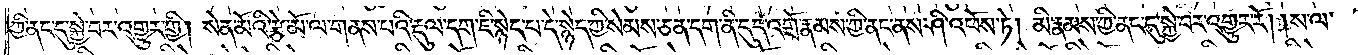ཀྱི་ནང་དུ་སྐྱེ་བར་འགྱུར་གྱི། སེན་མོའི་རྩེ་མོ་ལ་གནས་པའི་རྡུལ་དག་ཇི་སྙེད་པ་དེ་སྙེད་ཀྱི་སེམས་ཅན་དག་ནི་དུད་འགྲོ་རྣམས་ཀྱི་ནང་ནས་ཤི་འཕོས་ཏེ། མི་རྣམས་ཀྱི་ནང་དུ་སྐྱེ་བར་འགྱུར་རོ། །ས་ལ་
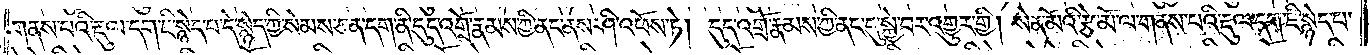གནས་པའི་རྡུལ་དག་ཇི་སྙེད་པ་དེ་སྙེད་ཀྱི་སེམས་ཅན་དག་ནི་དུད་འགྲོ་རྣམས་ཀྱི་ནང་ནས་ཤི་འཕོས་ཏེ། དུད་འགྲོ་རྣམས་ཀྱི་ནང་དུ་སྐྱེ་བར་འགྱུར་གྱི། སེན་མོའི་རྩེ་མོ་ལ་གནས་པའི་རྡུལ་དག་ཇི་སྙེད་པ་
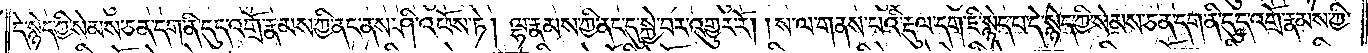དེ་སྙེད་ཀྱི་སེམས་ཅན་དག་ནི་དུད་འགྲོ་རྣམས་ཀྱི་ནང་ནས་ཤི་འཕོས་ཏེ། ལྷ་རྣམས་ཀྱི་ནང་དུ་སྐྱེ་བར་འགྱུར་རོ། །ས་ལ་གནས་པའི་རྡུལ་དག་ཇི་སྙེད་པ་དེ་སྙེད་ཀྱི་སེམས་ཅན་དག་ནི་དུད་འགྲོ་རྣམས་ཀྱི་
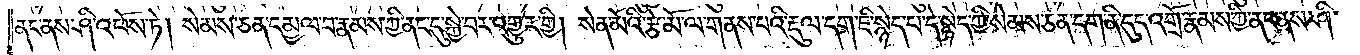ནང་ནས་ཤི་འཕོས་ཏེ། སེམས་ཅན་དམྱལ་བ་རྣམས་ཀྱི་ནང་དུ་སྐྱེ་བར་འགྱུར་གྱི། སེན་མོའི་རྩེ་མོ་ལ་གནས་པའི་རྡུལ་དག་ཇི་སྙེད་པ་དེ་སྙེད་ཀྱི་སེམས་ཅན་དག་ནི་དུད་འགྲོ་རྣམས་ཀྱི་ནང་ནས་ཤི་
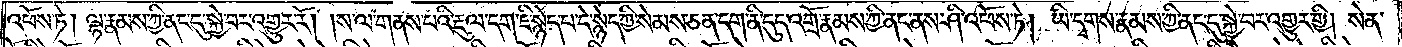འཕོས་ཏེ། ལྷ་རྣམས་ཀྱི་ནང་དུ་སྐྱེ་བར་འགྱུར་རོ། །ས་ལ་གནས་པའི་རྡུལ་དག་ཇི་སྙེད་པ་དེ་སྙེད་ཀྱི་སེམས་ཅན་དག་ནི་དུད་འགྲོ་རྣམས་ཀྱི་ནང་ནས་ཤི་འཕོས་ཏེ། ཡི་དྭགས་རྣམས་ཀྱི་ནང་དུ་སྐྱེ་བར་འགྱུར་གྱི། སེན་
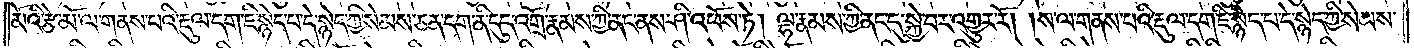མོའི་རྩེ་མོ་ལ་གནས་པའི་རྡུལ་དག་ཇི་སྙེད་པ་དེ་སྙེད་ཀྱི་སེམས་ཅན་དག་ནི་དུད་འགྲོ་རྣམས་ཀྱི་ནང་ནས་ཤི་འཕོས་ཏེ། ལྷ་རྣམས་ཀྱི་ནང་དུ་སྐྱེ་བར་འགྱུར་རོ། །ས་ལ་གནས་པའི་རྡུལ་དག་ཇི་སྙེད་པ་དེ་སྙེད་ཀྱི་སེམས་
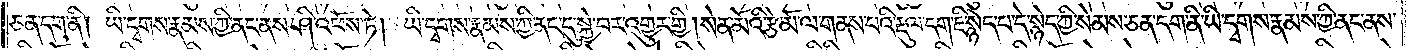ཅན་དག་ནི། ཡི་དྭགས་རྣམས་ཀྱི་ནང་ནས་ཤི་འཕོས་ཏེ། ཡི་དྭགས་རྣམས་ཀྱི་ནང་དུ་སྐྱེ་བར་འགྱུར་གྱི། སེན་མོའི་རྩེ་མོ་ལ་གནས་པའི་རྡུལ་དག་ཇི་སྙེད་པ་དེ་སྙེད་ཀྱི་སེམས་ཅན་དག་ནི་ཡི་དྭགས་རྣམས་ཀྱི་ནང་ནས་
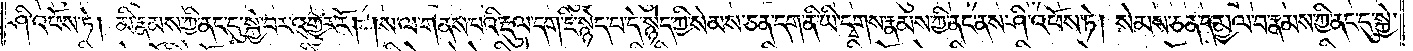ཤི་འཕོས་ཏེ། མི་རྣམས་ཀྱི་ནང་དུ་སྐྱེ་བར་འགྱུར་རོ། །ས་ལ་གནས་པའི་རྡུལ་དག་ཇི་སྙེད་པ་དེ་སྙེད་ཀྱི་སེམས་ཅན་དག་ནི་ཡི་དྭགས་རྣམས་ཀྱི་ནང་ནས་ཤི་འཕོས་ཏེ། སེམས་ཅན་དམྱལ་བ་རྣམས་ཀྱི་ནང་དུ་སྐྱེ་
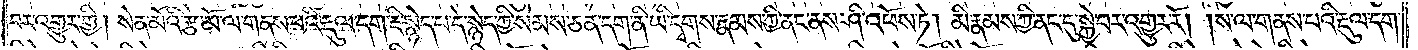བར་འགྱུར་གྱི། སེན་མོའི་རྩེ་མོ་ལ་གནས་པའི་རྡུལ་དག་ཇི་སྙེད་པ་དེ་སྙེད་ཀྱི་སེམས་ཅན་དག་ནི་ཡི་དྭགས་རྣམས་ཀྱི་ནང་ནས་ཤི་འཕོས་ཏེ། མི་རྣམས་ཀྱི་ནང་དུ་སྐྱེ་བར་འགྱུར་རོ། །ས་ལ་གནས་པའི་རྡུལ་དག་
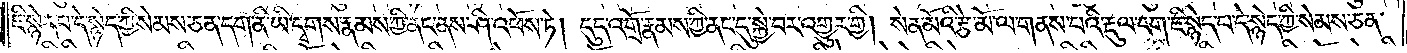ཇི་སྙེད་པ་དེ་སྙེད་ཀྱི་སེམས་ཅན་དག་ནི་ཡི་དྭགས་རྣམས་ཀྱི་ནང་ནས་ཤི་འཕོས་ཏེ། དུད་འགྲོ་རྣམས་ཀྱི་ནང་དུ་སྐྱེ་བར་འགྱུར་གྱི། སེན་མོའི་རྩེ་མོ་ལ་གནས་པའི་རྡུལ་དག་ཇི་སྙེད་པ་དེ་སྙེད་ཀྱི་སེམས་ཅན་
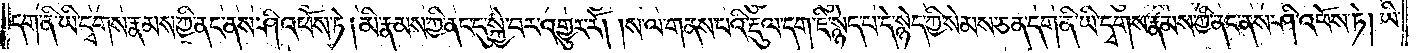དག་ནི་ཡི་དྭགས་རྣམས་ཀྱི་ནང་ནས་ཤི་འཕོས་ཏེ། མི་རྣམས་ཀྱི་ནང་དུ་སྐྱེ་བར་འགྱུར་རོ། །ས་ལ་གནས་པའི་རྡུལ་དག་ཇི་སྙེད་པ་དེ་སྙེད་ཀྱི་སེམས་ཅན་དག་ནི་ཡི་དྭགས་རྣམས་ཀྱི་ནང་ནས་ཤི་འཕོས་ཏེ། ཡི་
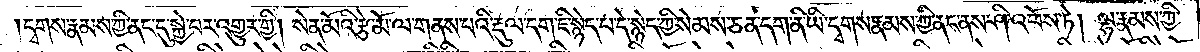དྭགས་རྣམས་ཀྱི་ནང་དུ་སྐྱེ་བར་འགྱུར་གྱི། སེན་མོའི་རྩེ་མོ་ལ་གནས་པའི་རྡུལ་དག་ཇི་སྙེད་པ་དེ་སྙེད་ཀྱི་སེམས་ཅན་དག་ནི་ཡི་དྭགས་རྣམས་ཀྱི་ནང་ནས་ཤི་འཕོས་ཏེ། ལྷ་རྣམས་ཀྱི་
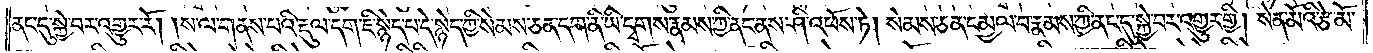ནང་དུ་སྐྱེ་བར་འགྱུར་རོ། །ས་ལ་གནས་པའི་རྡུལ་དག་ཇི་སྙེད་པ་དེ་སྙེད་ཀྱི་སེམས་ཅན་དག་ནི་ཡི་དྭགས་རྣམས་ཀྱི་ནང་ནས་ཤི་འཕོས་ཏེ། སེམས་ཅན་དམྱལ་བ་རྣམས་ཀྱི་ནང་དུ་སྐྱེ་བར་འགྱུར་གྱི། སེན་མོའི་རྩེ་མོ་
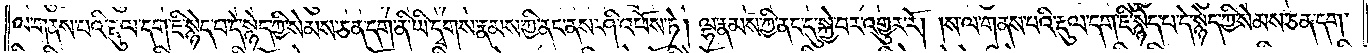ལ་གནས་པའི་རྡུལ་དག་ཇི་སྙེད་པ་དེ་སྙེད་ཀྱི་སེམས་ཅན་དག་ནི་ཡི་དྭགས་རྣམས་ཀྱི་ནང་ནས་ཤི་འཕོས་ཏེ། ལྷ་རྣམས་ཀྱི་ནང་དུ་སྐྱེ་བར་འགྱུར་རོ། །ས་ལ་གནས་པའི་རྡུལ་དག་ཇི་སྙེད་པ་དེ་སྙེད་ཀྱི་སེམས་ཅན་དག་
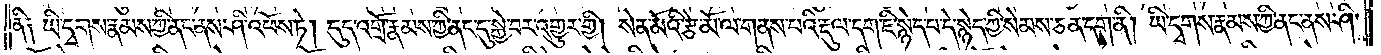ནི༑ ཡི་དྭགས་རྣམས་ཀྱི་ནང་ནས་ཤི་འཕོས་ཏེ། དུད་འགྲོ་རྣམས་ཀྱི་ནང་དུ་སྐྱེ་བར་འགྱུར་གྱི། སེན་མོའི་རྩེ་མོ་ལ་གནས་པའི་རྡུལ་དག་ཇི་སྙེད་པ་དེ་སྙེད་ཀྱི་སེམས་ཅན་དག་ནི། ཡི་དྭགས་རྣམས་ཀྱི་ནང་ནས་ཤི་
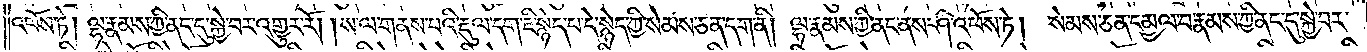འཕོས་ཏེ། ལྷ་རྣམས་ཀྱི་ནང་དུ་སྐྱེ་བར་འགྱུར་རོ། །ས་ལ་གནས་པའི་རྡུལ་དག་ཇི་སྙེད་པ་དེ་སྙེད་ཀྱི་སེམས་ཅན་དག་ནི། ལྷ་རྣམས་ཀྱི་ནང་ནས་ཤི་འཕོས་ཏེ། སེམས་ཅན་དམྱལ་བ་རྣམས་ཀྱི་ནང་དུ་སྐྱེ་བར་
